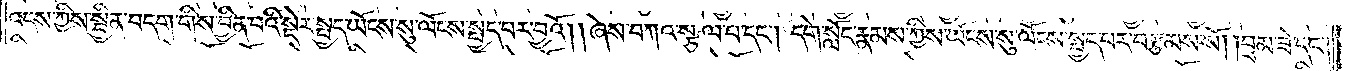འདས་ཀྱིས་སྦྱིན་བདག་གིས་བྱིན་པའི་སྡེར་སྤྱད་ཡོངས་སུ་ལོངས་སྤྱད་པར་བྱའོ། །ཞེས་བཀའ་སྩལ་པ་དང༌། དགེ་སློང་རྣམས་ཀྱིས་ཡོངས་སུ་ལོངས་སྤྱད་པར་བརྩམས་སོ། །བྲམ་ཟེ་དང༌།
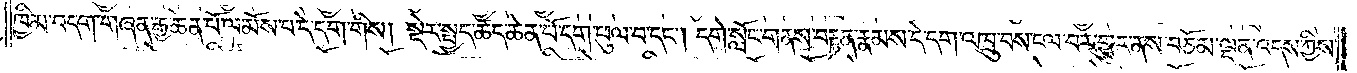ཁྱིམ་བདག་གཞན་རྒྱ་ཆེན་པོ་ལ་མོས་པ་དེ་དག་གིས། སྡེར་སྤྱད་ཚད་ཆེན་པོ་དག་ཕུལ་བ་དང༌། དགེ་སློང་གནས་བརྟན་རྣམས་དེ་དག་འཁྲུ་བས་ངལ་བར་གྱུར་ནས་བཅོམ་ལྡན་འདས་ཀྱིས་
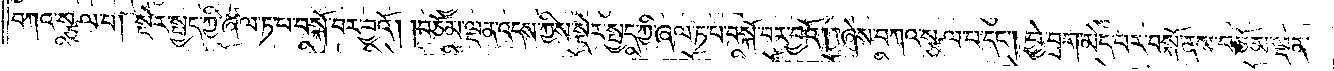བཀའ་སྩལ་པ། སྡེར་སྤྱད་ཀྱི་ཞལ་ཏ་པ་བསྐོ་བར་བྱའོ། །བཅོམ་ལྡན་འདས་ཀྱིས་སྡེར་སྤྱད་ཀྱི་ཞལ་ཏ་བ་བསྐོ་བར་བྱའོ། །ཞེས་བཀའ་སྩལ་པ་དང༌། བྱེ་བྲག་མེད་པར་བསྐོ་ནས་བཅོམ་ལྡན་
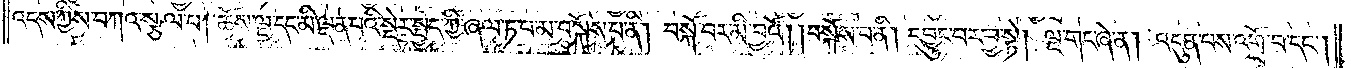འདས་ཀྱིས་བཀའ་སྩལ་པ། ཆོས་ལྔ་དང་མི་ལྡན་པའི་སྡེར་སྤྱད་ཀྱི་ཞལ་ཏ་པ་མ་བསྐོས་པ་ནི། བསྐོ་བར་མི་བྱའོ། །བསྐོས་པ་ནི། དབྱུང་བར་བྱ་སྟེ། ལྔ་གང་ཞེ་ན། འདུན་པས་འགྲོ་བ་དང༌།
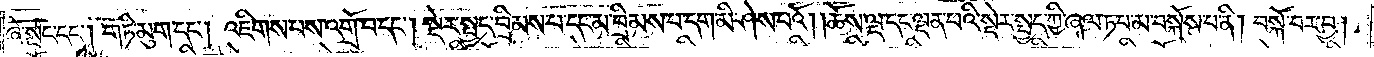ཞེ་སྡང་དང༌། གཏི་མུག་དང༌། འཇིགས་པས་འགྲོ་བ་དང༌། སྡེར་སྤྱད་བྲིམས་པ་དང་མ་བྲིམས་པ་དག་མི་ཤེས་པའོ། །ཆོས་ལྔ་དང་ལྡན་པའི་སྡེར་སྤྱད་ཀྱི་ཞལ་ཏ་པ་མ་བསྐོས་པ་ནི། བསྐོ་བར་བྱ།
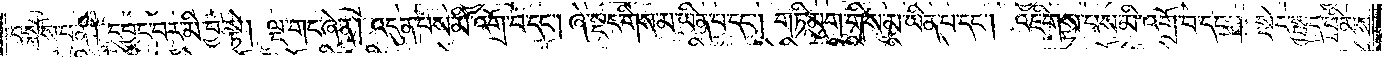བསྐོས་པ་ནི། དབྱུང་བར་མི་བྱ་སྟེ། ལྔ་གང་ཞེ་ན། འདུན་པས་མི་འགྲོ་བ་དང༌། ཞེ་སྡང་གིས་མ་ཡིན་པ་དང༌། གཏི་མུག་གིས་མ་ཡིན་པ་དང༌། འཇིགས་པས་མི་འགྲོ་བ་དང༌། སྡེར་སྤྱད་བྲིམས་
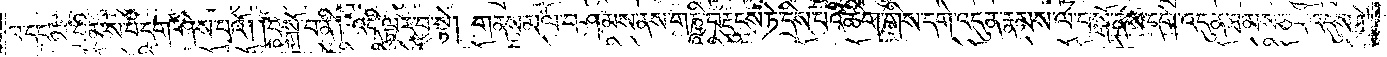པ་དང་མ་བྲིམས་པ་དག་ཤེས་པའོ། །བསྐོ་བ་ནི། འདི་ལྟར་བྱ་སྟེ། གནས་མལ་བཤམས་ནས་གཎྜཱི་བརྡུངས་ཏེ་དྲིས་པའི་ཚིག་གིས་དགེ་འདུན་རྣམས་ལ་བསྒོ་ནས་དགེ་འདུན་ཐམས་ཅད་འདུས་ཏེ་
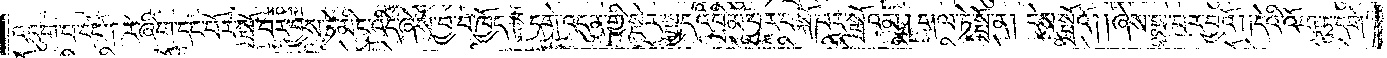འདུག་པ་དང༌། རེ་ཞིག་དང་པོར་སྤྲོ་བར་བྱས་ཏེ་མིང་འདི་ཞེས་བྱ་བ་ཁྱོད། དགེ་འདུན་གྱི་སྡེར་སྤྱད་འབྲིམ་པར་བསྐོ་བར་སྤྲོའམ། གལ་ཏེ་སྤྲོ་ན། དེས་སྤྲོའོ། །ཞེས་སྨྲ་བར་བྱའོ། །དེའི་འོག་ཏུ་དགེ་
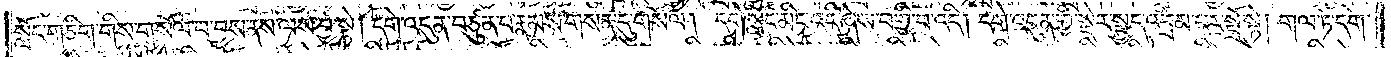སློང་གཅིག་གིས་གསོལ་བ་བྱས་ནས་ལས་བྱ་སྟེ། དགེ་འདུན་བཙུན་པ་རྣམས་གསན་དུ་གསོལ། དགེ་སློང་མིང་འདི་ཞེས་བགྱི་བ་འདི། དགེ་འདུན་གྱི་སྡེར་སྤྱད་འབྲིམ་པར་སྤྲོ་སྟེ། གལ་ཏེ་དགེ་
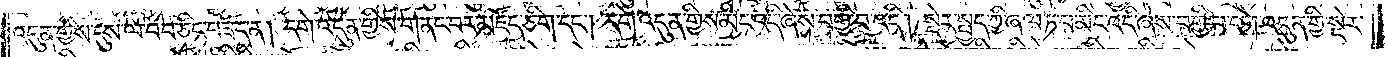འདུན་གྱིས་དུས་ལ་བབ་ཅིང་བཟོད་ན། དགེ་འདུན་གྱིས་གནང་བར་མཛོད་ཅིག་དང༌། དགེ་འདུན་གྱིས་མིང་འདི་ཞེས་བགྱི་བ་འདི། སྡེར་སྤྱད་ཀྱི་ཞལ་ཏ་པ་མིང་འདི་ཞེས་བགྱི་བ་དགེ་འདུན་གྱི་སྡེར་
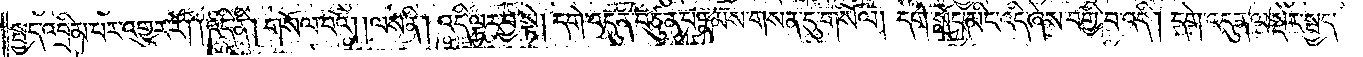སྤྱད་འབྲིམ་པར་འགྱུར་རོ། །འདི་ནི། གསོལ་བའོ། །ལས་ནི། འདི་ལྟར་བྱ་སྟེ། དགེ་འདུན་བཙུན་པ་རྣམས་གསན་དུ་གསོལ། །དགེ་སློང་མིང་འདི་ཞེས་བགྱི་བ་འདི། དགེ་འདུན་ལ་སྡེར་སྤྱད་
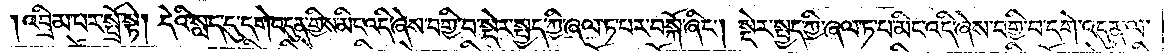འབྲིམ་པར་སྤྲོ་སྟེ། དེའི་སླད་དུ་དགེ་འདུན་གྱིས་མིང་འདི་ཞེས་བགྱི་བ་སྡེར་སྤྱད་ཀྱི་ཞལ་ཏ་པར་བསྐོ་ཞིང༌། སྡེར་སྤྱད་ཀྱི་ཞལ་ཏ་པ་མིང་འདི་ཞེས་བགྱི་བ་དགེ་འདུན་ལ་
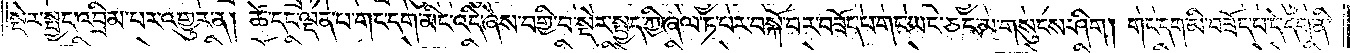སྡེར་སྤྱད་འབྲིམ་པར་འགྱུར་ན། ཚེ་དང་ལྡན་པ་གང་ངག་མིང་འདི་ཞེས་བགྱི་བ་སྡེར་སྤྱད་ཀྱི་ཞལ་ཏ་པར་བསྐོ་བར་བཟོད་པ་གང་ཡང་ཅང་མ་གསུངས་ཤིག །གང་དག་མི་བཟོད་པ་དེ་དག་ནི་
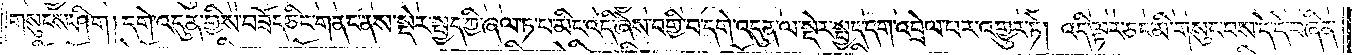གསུངས་ཤིག །དགེ་འདུན་གྱིས་བཟོད་ཅིང་གནང་ནས་སྡེར་སྤྱད་ཀྱི་ཞལ་ཏ་པ་མིང་འདི་ཞེས་བགྱི་བ་དགེ་འདུན་ལ་སྡེར་སྤྱད་དག་འབྲེལ་བར་འགྱུར་ཏེ། འདི་ལྟར་ཅང་མི་གསུང་བས་དེ་དེ་བཞིན་
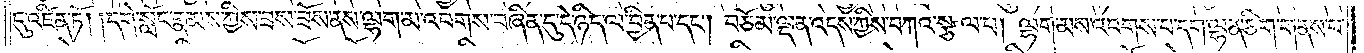དུ་འཛིན་ཏོ། །དགེ་སློང་རྣམས་ཀྱིས་ཟས་ཟོས་ནས་ལྷག་མ་འབགས་བཞིན་དུ་དེ་ཉིད་ལ་བྱིན་པ་དང༌། བཅོམ་ལྡན་འདས་ཀྱིས་བཀའ་སྩལ་པ། ལྷག་མས་འབགས་པ་དག་ལྷན་ཅིག་གནས་པ་
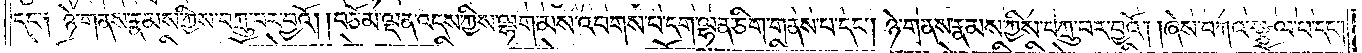དང༌། ཉེ་གནས་རྣམས་ཀྱིས་བཀྲུ་བར་བྱའོ། །བཅོམ་ལྡན་འདས་ཀྱིས་ལྷག་མས་འབགས་པ་དག་ལྷན་ཅིག་གནས་པ་དང༌། ཉེ་གནས་རྣམས་ཀྱིས་བཀྲུ་བར་བྱའོ། །ཞེས་བཀའ་སྩལ་པ་དང༌།
